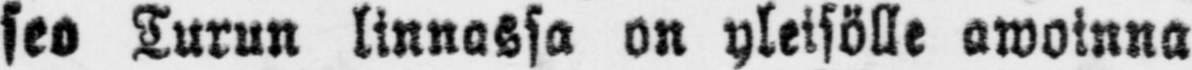seo Turun linnassa on yleisölle awoinna
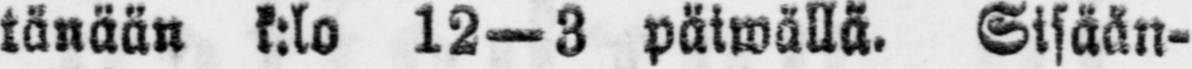tänään k:lo 12—3 päiwällä. Sisään-
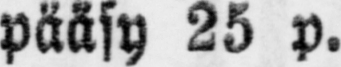pääsy 25 p.
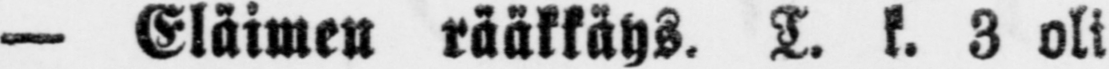— Eläimen rääkkäys. T. k. 3 oli
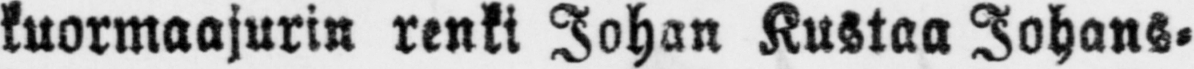kuormaajurin renki Johan Kustaa Johans-
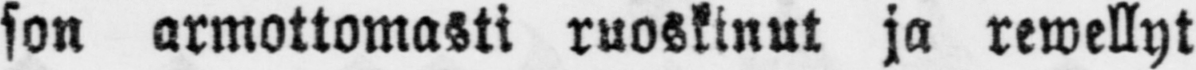son armottomasti ruoskinut ja rewellyt
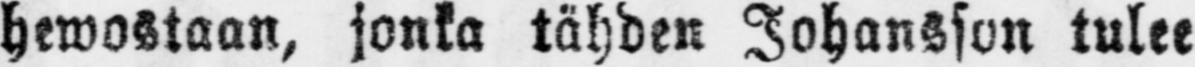hewostaan, jonka tähden Johansson tulee
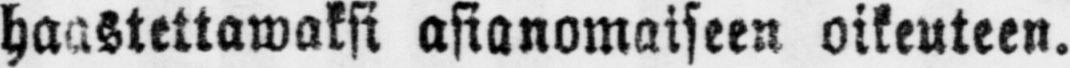haastettawaksi asianomaiseen oikeuteen.
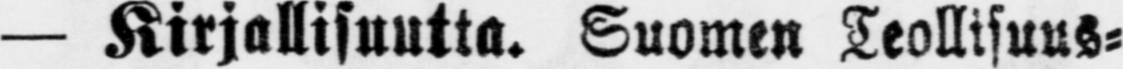— Kirjallisuutta. Suomen Teollisuus-
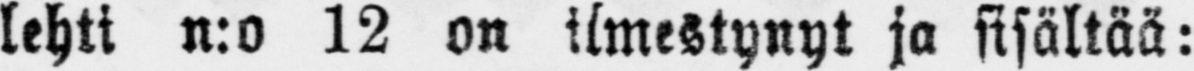lehti n:o 12 on ilmestynyt ja sisältää:
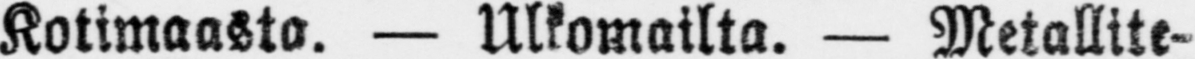Kotimaasta. — Ulkomailta. — Metallite-
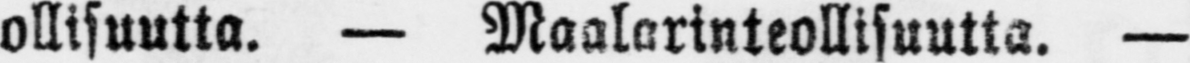ollisuutta. — Maalarinteollisuutta. —
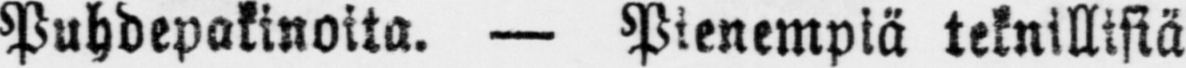Puhdepakinoita. — Pienempiä teknillisiä
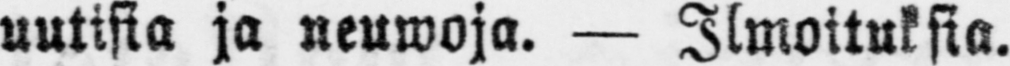uutisia ja neuwoja. — Ilmoituksia.
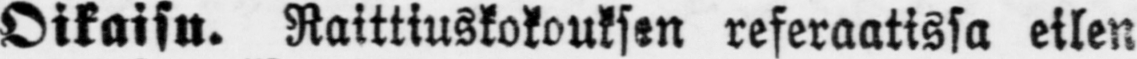Oikaisu. Raittiuskokouksen referaatissa eilen
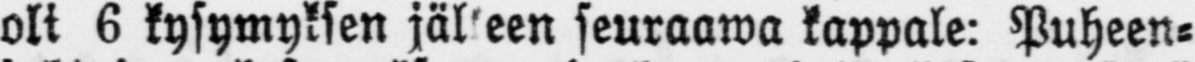oli 6 kysymyksen jälleen seuraawa kappale: Puheen-
